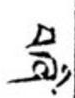བཞི་
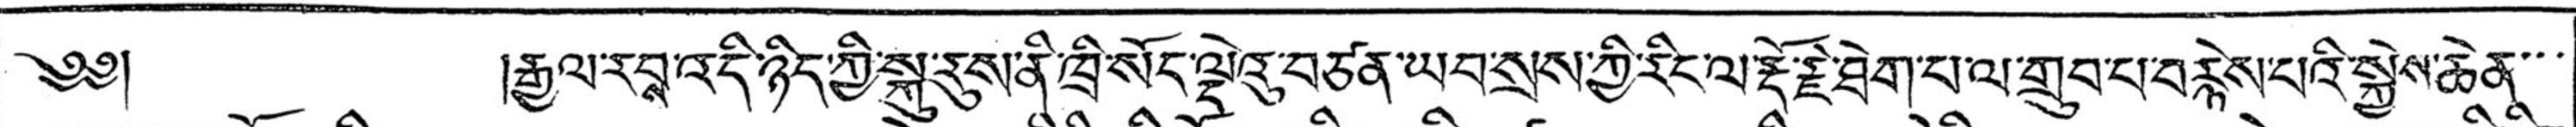༄༅།  །རྒྱལ་རབས་འདི་ནི་སྐུ་རུས་ནི་ཁྲི་སོང་ལྡེའུ་བཙན་ཡབ་སས་ཀྱི་རིང་ལ་རྡོ་རྗེ་ཐེག་པ་ལ་གྲུབ་པ་བརྙེས་པའི་སྐྱེས་ཆེན་་་
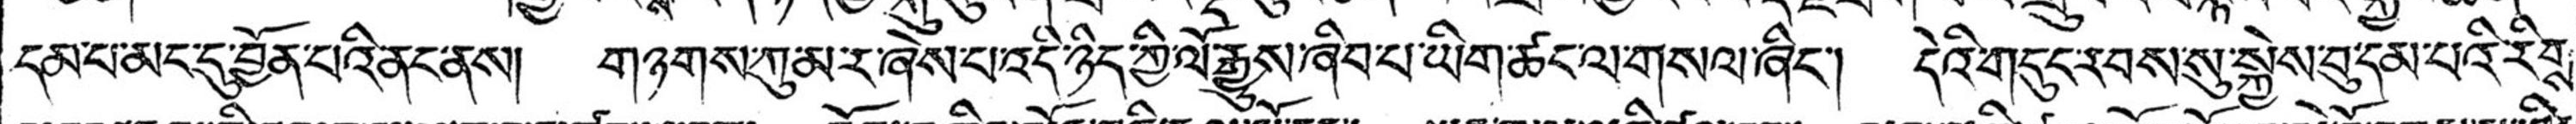དམ་པ་མང་དུ་བྱོན་པའི་ནང་ནས། གཉགས་ཀུ་མར་ཞེས་པའདི་ཉིད་གྱི་ལོ་རྒྱུས་ཞིབ་པ་ཡིག་ཚང་ལ་གསལ་ཞིང་། དེའི་གདུང་རབས་སུ་སྐྱེས་བུ་དམ་པའི་རིགས་
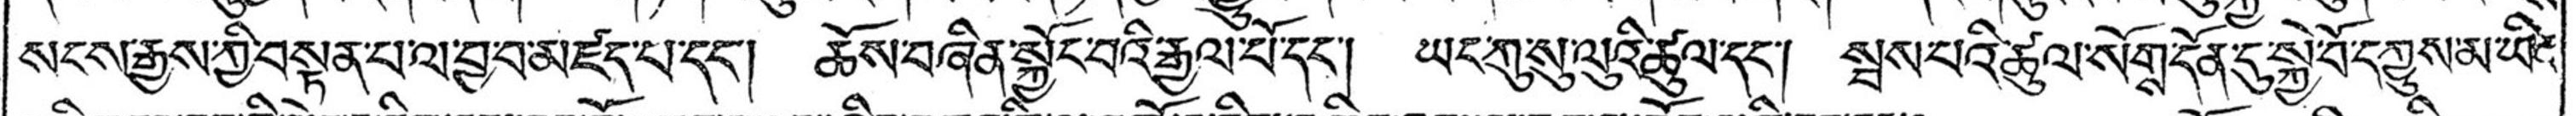སངས་རྒྱས་ཀྱི་བསྟན་པ་ལ་བྱ་བ་མཛད་པ་དང་། ཆོས་བཞིན་སྐྱོང་བའི་རྒྱལ་པོདང་། ཡང་ཀུ་སུ་ལུའི་ཚུལ་དང་། སྦས་པའི་ཚུལ་སོགས་དོན་དུ་སྐྱེ་བོ་དཀྱུས་མ་ཡིན་
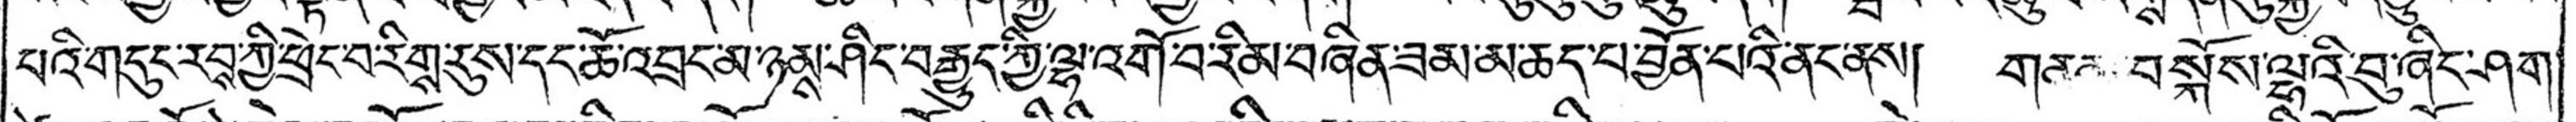པའི་གདུང་རབས་ཀྱི་ཕྲིང་བ་རིགས་རུས་དང་ཆོ་འབྲང་མ་ཉམས་ཤིང་བརྒྱུད་ཀྱི་ལྷ་འགོ་བ་རིམ་བཞིན་ཟམ་མ་ཆད་པ་བྱོན་པའི་ནང་ནས། གནན་བསྐོས་ལྷའི་བུ་ཞིང་ཤག་
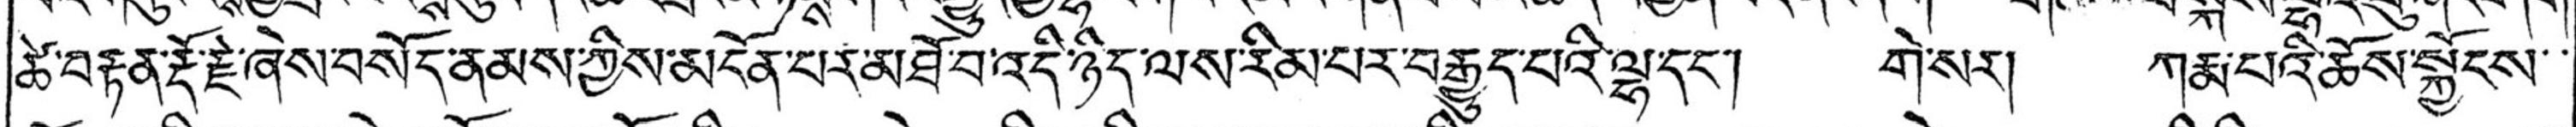ཚེ་བརྟན་རྡོ་རྗེ་ཞེས་བསོད་ནམས་ཀྱིས་མངོན་པར་མཐོ་བ་འདི་ཉིད་ལས་རིམ་པར་བརྒྱུད་པའི་ལྷ་དང་། གེ་སར། ཀརྨ་པའི་ཆོས་སྐྱོངས་་
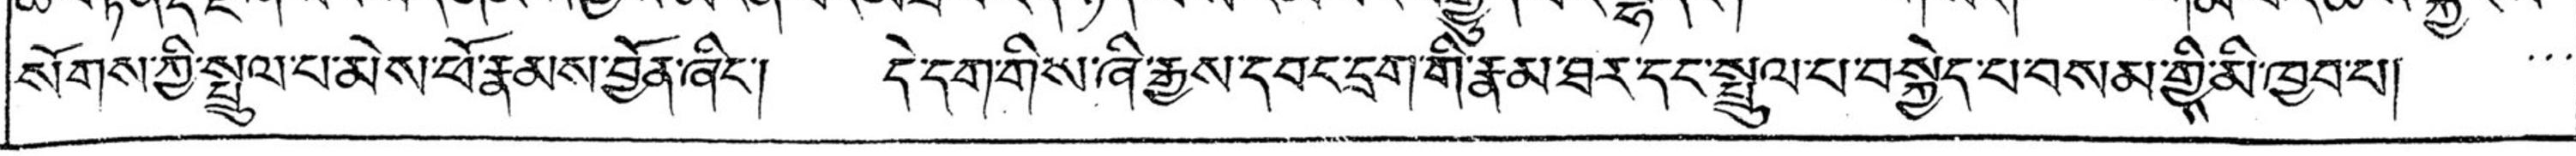སོགས་ཀྱི་སྤྲུལ་པ་མེས་ཕོ་རྣམས་བྱོན་ཞིང་། དེ་དག་གིས་ཞི་རྒྱས་དབང་དྲག་གི་རྣམ་ཐར་དང་སྤྲུལ་པ་བསྐྱེད་པ་བསམ་གྱིས་མི་ཁྱབ་པ། ་་་
